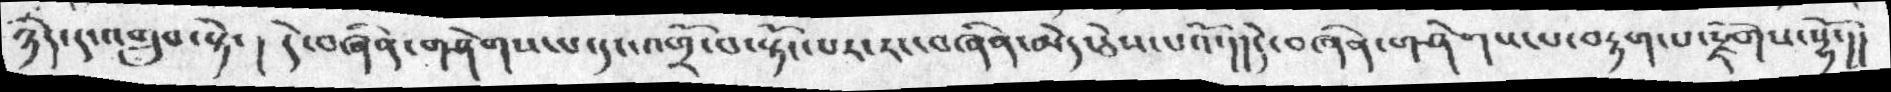ཉིད་དང་འགྲུབ་སྟེ་། དེ་བཞིན་གཤེགས་པ་དང་འཕྲོ་བ་སྟོང་པར་རང་བཞིན་མེད་ཅེས་པའོ་། །དེ་བཞིན་གཤེགས་པ་བརྟག་པ་རྫོགས་སྷོ་།།
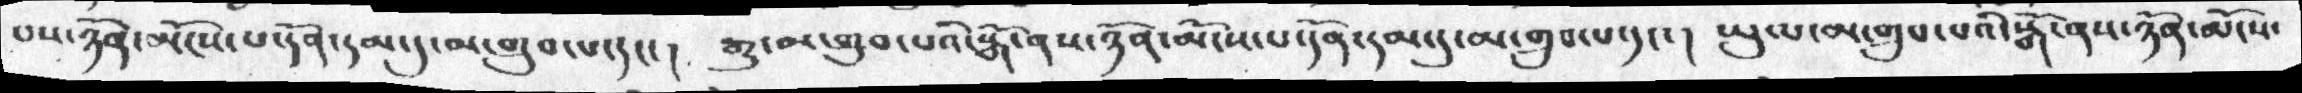པས་ཉོན་མོངས་པ་དོན་དམ་དུ་མ་གྲུབ་པ་དང་། རྒྱུ་མ་གྲུབ་པའི་སྒོ་ནས་ཉོན་མོངས་པ་དོན་དམ་དུ་མ་གྲུབ་པ་དང་། ཡུལ་མ་གྲུབ་པའི་སྒོ་ནས་ཉོན་མོངས་
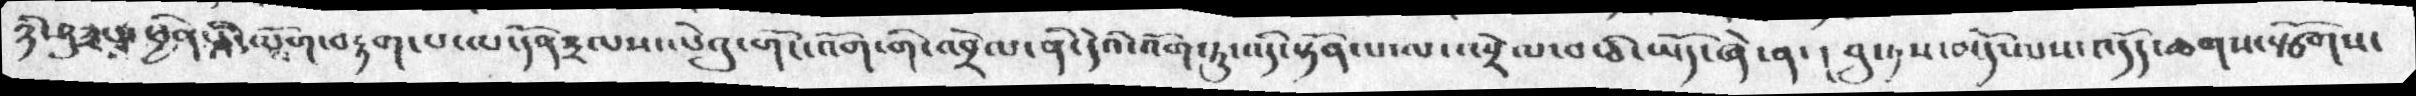ཉི་ཤུ་རྩ་༡་ཕྱན་ཅི་ལོག་བརྟག་པ་ལ་དོན༣ལས་ལེའུ་གོང་འོག་གི་འབྲེལ་ནི་དེའི་འོག་ཏུ་འདི་སྟོན་པ་ལ་འབྲེལ་བ་ཅི་ཡོད་ཞེ་ན་།  བུ་ཏས་མདོས་པས་འདོད་ཆགས་སྩོགས་
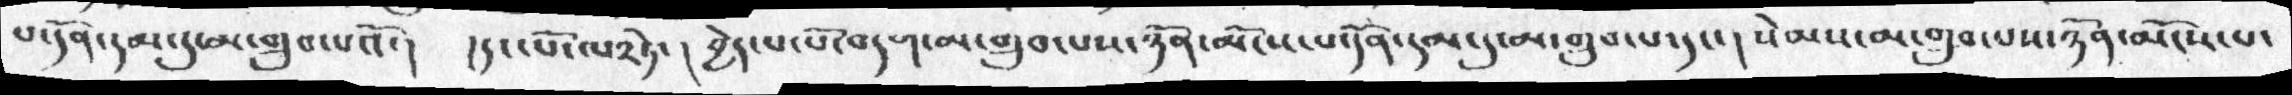པ་དོན་དམ་དུ་མ་གྲུབ་པའོ་།  །དང་པོ་ལ༢ཏེ་། བྱེད་པ་པོ་བདག་མ་གྲུབ་པས་ཉོན་མོངས་པ་དོན་དམ་དུ་མ་གྲུབ་པ་དང་། སེམས་མ་གྲུབ་པས་ཉོན་མོངས་པ་
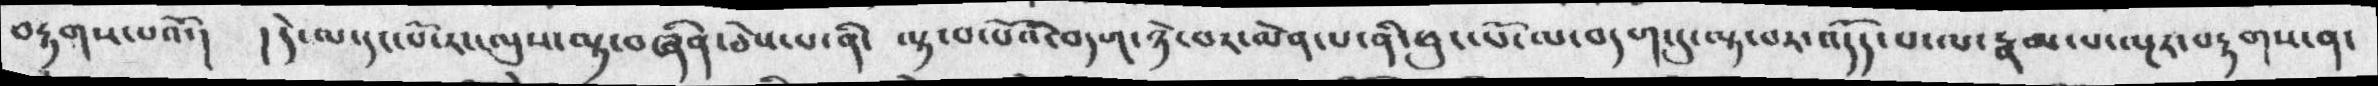བརྟགས་པའོ་།  ། དེ་ལ་དང་པོ་རང་ལུས་ལྟ་བཞིན་ཅེས་པ་ནི་  ལྟ་བ་པོའི་བདག་ཉེ་བར་ལེན་པ་ནི་ཕུང་པོ་ལ་བདག་དུ་ལྟ་བར་འདོད་པ་ལ་རྣམ་པ་ལྔར་བརྟགས་ན་
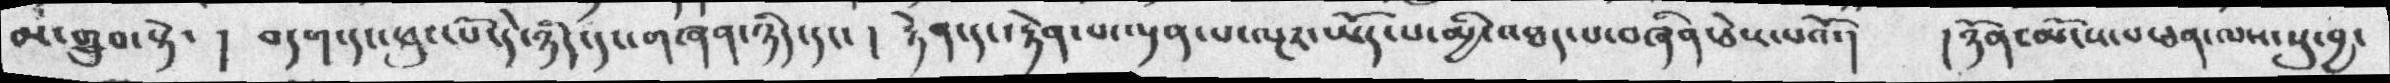མ་གྲུབ་སྟེ་  ། བདག་དང་ཕུང་པོ་དེ་ཉིད་དང་གཞན་ཉིད་དང་ ། རྟེན་དང་རྟེན་པ་ལྡན་པ་ལྔར་ཡོད་པ་མྱི་འཐད་པ་བཞིན་ཅེས་པའོ་།  ། ཉོན་མོངས་པ་ཅན་ལས་སུ་བྱ་
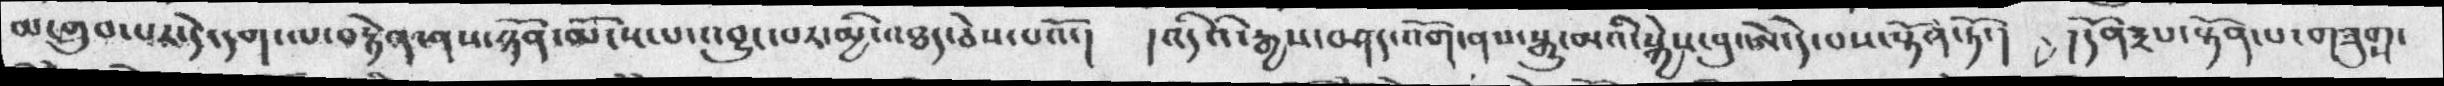མ་གྲུབ་པར་དེ་དག་ལ་བརྟེན་ནས་ཉོན་མོངས་པ་འབྱུང་པར་མྱི་འཐད་ཅེས་པའོ་།  །འདིའི་རྒྱས་བཤད་འོག་ནས་སྒྱུ་མའི་སྐྱེས་བུ་ཨེ་དེ་པས་སྟོན་ཏོ་།  །དོན༣པ་སྟོན་པ་གཟུགས་
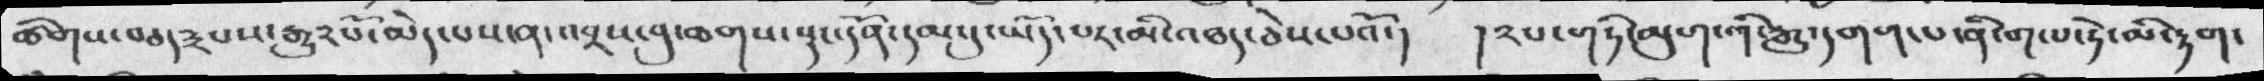ཚིགས་བཅད༣པས་རྒྱུ༢པོ་མེད་པས་ན་འབྲས་བུ་ཆགས་སྡང་དོན་དམ་དུ་ཡོད་པར་མི་འཐད་ཅེས་པའོ་།  །༢པ་གཏི་མུག་གི་རྒྱུ་དགག་པ་ནི་ག་པ་ཏེ་མི་རྟག་
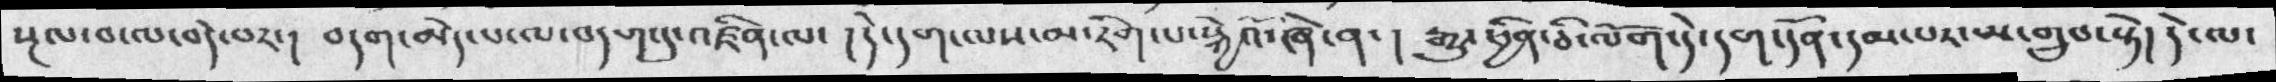སྔལ་བ་ལ་བདེ་བར་།  བདག་མེད་པ་ལ་བདག་དུ་འཛིན་ལ་ ། དེ་དག་ལས་མ་རིག་པ་སྐྱེའོ་ཞེ་ན་།  རྒྱུ་ཕྱིན་ཅི་ལོག་དེ་དག་དོན་དམ་པར་མ་གྲུབ་སྟེ།  དེ་ལ་
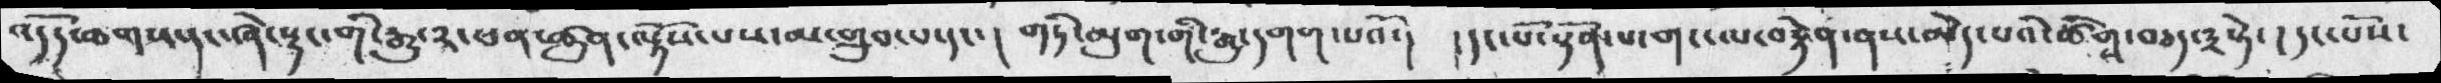འདོད་ཆགས་དང་ཞེ་སྡང་གི་རྒྱུ་༢་ཕན་ཚུན་ལྟོས་པས་མ་གྲུབ་པ་དང་།  གཏ་མུག་གི་རྒྱུ་དགག་པའོ་།   །དང་པོ་སྟོན་པ་གང་ལ་བརྟེན་ནས་མེད་པའི་ཚིགས་བཅད་༣སྟེ་།  དང་པོ་
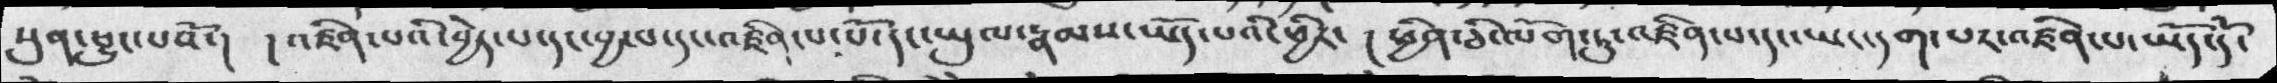སུན་ཕྱུང་པའོ་།  ། འཛིན་པའི་བྱེད་པ་དང་བྱ་བ་དང་འཛིན་པ་པོ་དང་ཡུལ་རྣམས་ཡོད་པའི་ཕྱིར་ ། ཕྱིན་ཅི་ལོག་ཏུ་འཛིན་པ་དང་ཡང་དག་པར་འཛིན་པ་ཡོད་དོ་
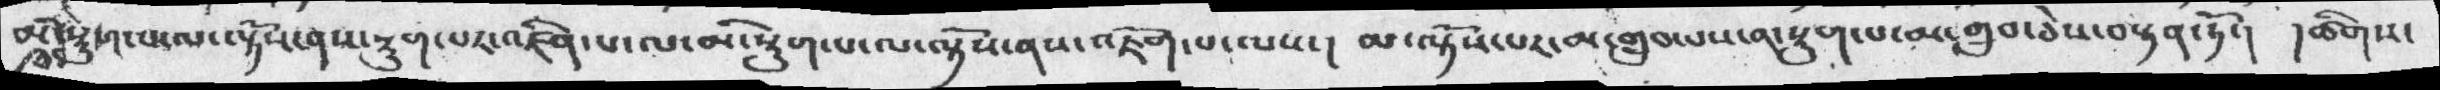མི་སྡུག་པ་ལ་ལྟོས་ནས་སྡུག་པར་འཛིན་པ་ལ་མི་སྡུག་པ་ལ་ལྟོས་ནས་འཇིག་པ་ལས་།  མ་ལྟོས་པར་མ་གྲུབ་པས་ན་སྡུག་པ་མ་གྲུབ་ཅེས་བསྟན་ཏོ་།  །ཚིགས་
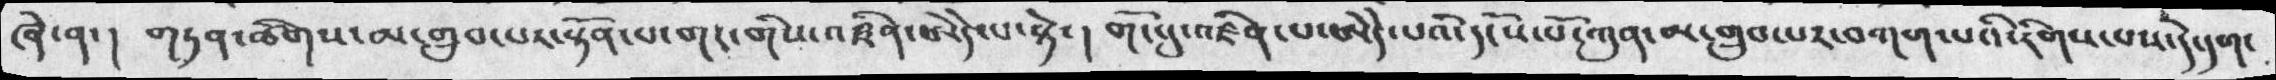ཞེ་ན་།  གཏན་ཚིགས་མ་གྲུབ་པར་སྟོན་པ་གང་གིས་འཛིན་ཨེདེ་པ་སྟེ་།  གོང་དུ་འཛིན་པ་ཨེདེ་པའི་དངོས་པོ་ཀུན་མ་གྲུབ་པར་བཀག་པའི་རིགས་པས་དེ་དག་
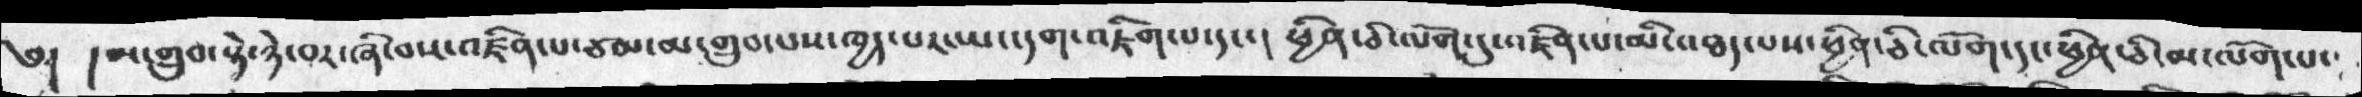༄། །མ་གྲུབ་སྟེ་ཉེ་བར་ཞི་བས་འཛིན་པ་ཙམ་མ་གྲུབ་པས་ཁྱད་པར་ཡང་དག་འཇིག་པ་དང་།  ཕྱིན་ཅི་ལོག་དུ་འཛིན་པ་མི་འཐད་པས་ཕྱིན་ཅི་ལོག་དང་ཕྱིན་ཅི་མ་ལོག་པ་
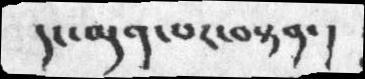དང་ལྡན་པར་བསྟན་།
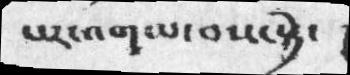སྤང་འགལ་བས་སྟེ་
